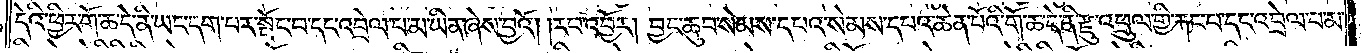དེའི་ཕྱིར་གོ་ཆ་དེ་ནི་ཡང་དག་པར་སྤོང་བ་དང་འབྲེལ་པ་མ་ཡིན་ཞེས་བྱའོ། །རབ་འབྱོར། བྱང་ཆུབ་སེམས་དཔའ་སེམས་དཔའ་ཆེན་པོའི་གོ་ཆ་དེ་ནི་རྫུ་འཕྲུལ་གྱི་རྐང་པ་དང་འབྲེལ་པ་མ་
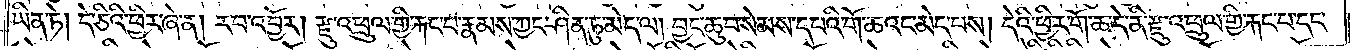ཡིན་ཏེ། དེ་ཅིའི་ཕྱིར་ཞེ་ན། རབ་འབྱོར། རྫུ་འཕྲུལ་གྱི་རྐང་པ་རྣམས་ཀྱང་ཤིན་ཏུ་མེད་ལ། བྱང་ཆུབ་སེམས་དཔའི་གོ་ཆའང་མེད་པས། དེའི་ཕྱིར་གོ་ཆ་དེ་ནི་རྫུ་འཕྲུལ་གྱི་རྐང་པ་དང་
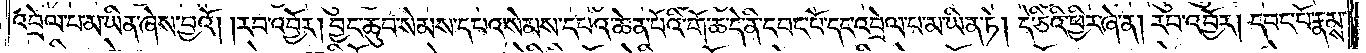འབྲེལ་པ་མ་ཡིན་ཞེས་བྱའོ། །རབ་འབྱོར། བྱང་ཆུབ་སེམས་དཔའ་སེམས་དཔའ་ཆེན་པོའི་གོ་ཆ་དེ་ནི་དབང་པོ་དང་འབྲེལ་པ་མ་ཡིན་ཏེ། དེ་ཅིའི་ཕྱིར་ཞེ་ན། རབ་འབྱོར། དབང་པོ་རྣམས་
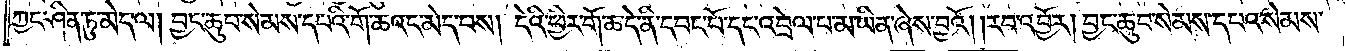ཀྱང་ཤིན་ཏུ་མེད་ལ། བྱང་ཆུབ་སེམས་དཔའི་གོ་ཆའང་མེད་པས། དེའི་ཕྱིར་གོ་ཆ་དེ་ནི་དབང་པོ་དང་འབྲེལ་པ་མ་ཡིན་ཞེས་བྱའོ། །རབ་འབྱོར། བྱང་ཆུབ་སེམས་དཔའ་སེམས་
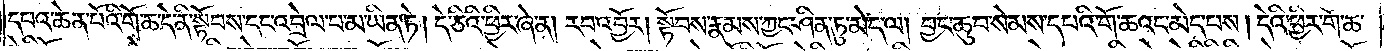དཔའ་ཆེན་པོའི་གོ་ཆ་དེ་ནི་སྟོབས་དང་འབྲེལ་པ་མ་ཡིན་ཏེ། དེ་ཅིའི་ཕྱིར་ཞེ་ན། རབ་འབྱོར། སྟོབས་རྣམས་ཀྱང་ཤིན་ཏུ་མེད་ལ། བྱང་ཆུབ་སེམས་དཔའི་གོ་ཆའང་མེད་པས། དེའི་ཕྱིར་གོ་ཆ་
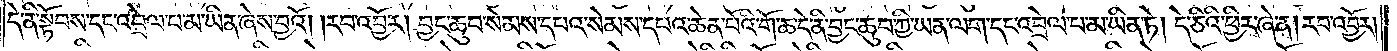དེ་ནི་སྟོབས་དང་འབྲེལ་པ་མ་ཡིན་ཞེས་བྱའོ། །རབ་འབྱོར། བྱང་ཆུབ་སེམས་དཔའ་སེམས་དཔའ་ཆེན་པོའི་གོ་ཆ་དེ་ནི་བྱང་ཆུབ་ཀྱི་ཡན་ལག་དང་འབྲེལ་པ་མ་ཡིན་ཏེ། དེ་ཅིའི་ཕྱིར་ཞེ་ན། རབ་འབྱོར།
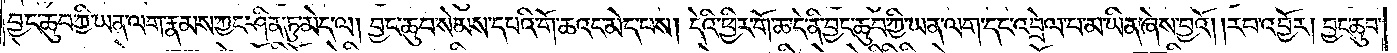བྱང་ཆུབ་ཀྱི་ཡན་ལག་རྣམས་ཀྱང་ཤིན་ཏུ་མེད་ལ། བྱང་ཆུབ་སེམས་དཔའི་གོ་ཆའང་མེད་པས། དེའི་ཕྱིར་གོ་ཆ་དེ་ནི་བྱང་ཆུབ་ཀྱི་ཡན་ལག་དང་འབྲེལ་པ་མ་ཡིན་ཞེས་བྱའོ། །རབ་འབྱོར། བྱང་ཆུབ་
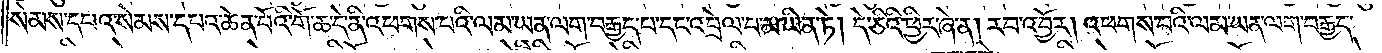སེམས་དཔའ་སེམས་དཔའ་ཆེན་པོའི་གོ་ཆ་དེ་ནི་འཕགས་པའི་ལམ་ཡན་ལག་བརྒྱད་པ་དང་འབྲེལ་པ་མ་ཡིན་ཏེ། དེ་ཅིའི་ཕྱིར་ཞེ་ན། རབ་འབྱོར། འཕགས་པའི་ལམ་ཡན་ལག་བརྒྱད་
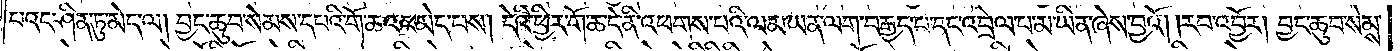པའང་ཤིན་ཏུ་མེད་ལ། བྱང་ཆུབ་སེམས་དཔའི་གོ་ཆའང་མེད་པས། དེའི་ཕྱིར་གོ་ཆ་དེ་ནི་འཕགས་པའི་ལམ་ཡན་ལག་བརྒྱད་པ་དང་འབྲེལ་པ་མ་ཡིན་ཞེས་བྱའོ། །རབ་འབྱོར། བྱང་ཆུབ་སེམས་
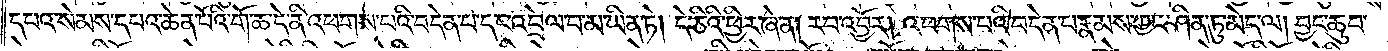དཔའ་སེམས་དཔའ་ཆེན་པོའི་གོ་ཆ་དེ་ནི་འཕགས་པའི་བདེན་པ་དང་འབྲེལ་པ་མ་ཡིན་ཏེ། དེ་ཅིའི་ཕྱིར་ཞེ་ན། རབ་འབྱོར། འཕགས་པའི་བདེན་པ་རྣམས་ཀྱང་ཤིན་ཏུ་མེད་ལ། བྱང་ཆུབ་
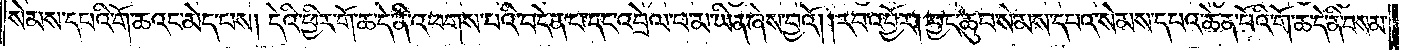སེམས་དཔའི་གོ་ཆའང་མེད་པས། དེའི་ཕྱིར་གོ་ཆ་དེ་ནི་འཕགས་པའི་བདེན་པ་དང་འབྲེལ་པ་མ་ཡིན་ཞེས་བྱའོ། །རབ་འབྱོར། བྱང་ཆུབ་སེམས་དཔའ་སེམས་དཔའ་ཆེན་པོའི་གོ་ཆ་དེ་ནི་བསམ་
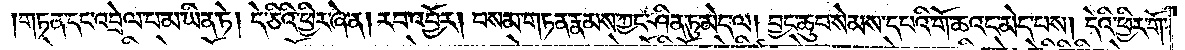གཏན་དང་འབྲེལ་པ་མ་ཡིན་ཏེ། དེ་ཅིའི་ཕྱིར་ཞེ་ན། རབ་འབྱོར། བསམ་གཏན་རྣམས་ཀྱང་ཤིན་ཏུ་མེད་ལ། བྱང་ཆུབ་སེམས་དཔའི་གོ་ཆའང་མེད་པས། དེའི་ཕྱིར་གོ་
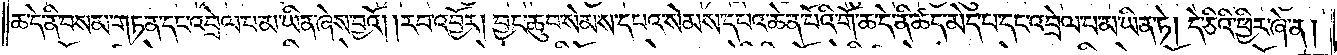ཆ་དེ་ནི་བསམ་གཏན་དང་འབྲེལ་པ་མ་ཡིན་ཞེས་བྱའོ། །རབ་འབྱོར། བྱང་ཆུབ་སེམས་དཔའ་སེམས་དཔའ་ཆེན་པོའི་གོ་ཆ་དེ་ནི་ཚད་མེད་པ་དང་འབྲེལ་པ་མ་ཡིན་ཏེ། དེ་ཅིའི་ཕྱིར་ཞེ་ན།
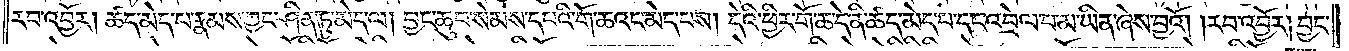རབ་འབྱོར། ཚད་མེད་པ་རྣམས་ཀྱང་ཤིན་ཏུ་མེད་ལ། བྱང་ཆུབ་སེམས་དཔའི་གོ་ཆའང་མེད་པས། དེའི་ཕྱིར་གོ་ཆ་དེ་ནི་ཚད་མེད་པ་དང་འབྲེལ་པ་མ་ཡིན་ཞེས་བྱའོ། །རབ་འབྱོར། བྱང་
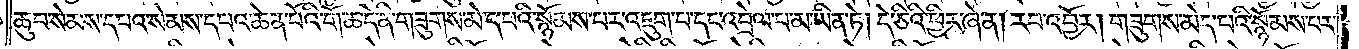ཆུབ་སེམས་དཔའ་སེམས་དཔའ་ཆེན་པོའི་གོ་ཆ་དེ་ནི་གཟུགས་མེད་པའི་སྙོམས་པར་འཇུག་པ་དང་འབྲེལ་པ་མ་ཡིན་ཏེ། དེ་ཅིའི་ཕྱིར་ཞེ་ན། རབ་འབྱོར། གཟུགས་མེད་པའི་སྙོམས་པར་
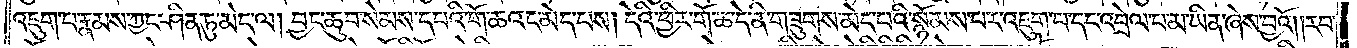འཇུག་པ་རྣམས་ཀྱང་ཤིན་ཏུ་མེད་ལ། བྱང་ཆུབ་སེམས་དཔའི་གོ་ཆའང་མེད་པས། དེའི་ཕྱིར་གོ་ཆ་དེ་ནི་གཟུགས་མེད་པའི་སྙོམས་པར་འཇུག་པ་དང་འབྲེལ་པ་མ་ཡིན་ཞེས་བྱའོ། །རབ་
